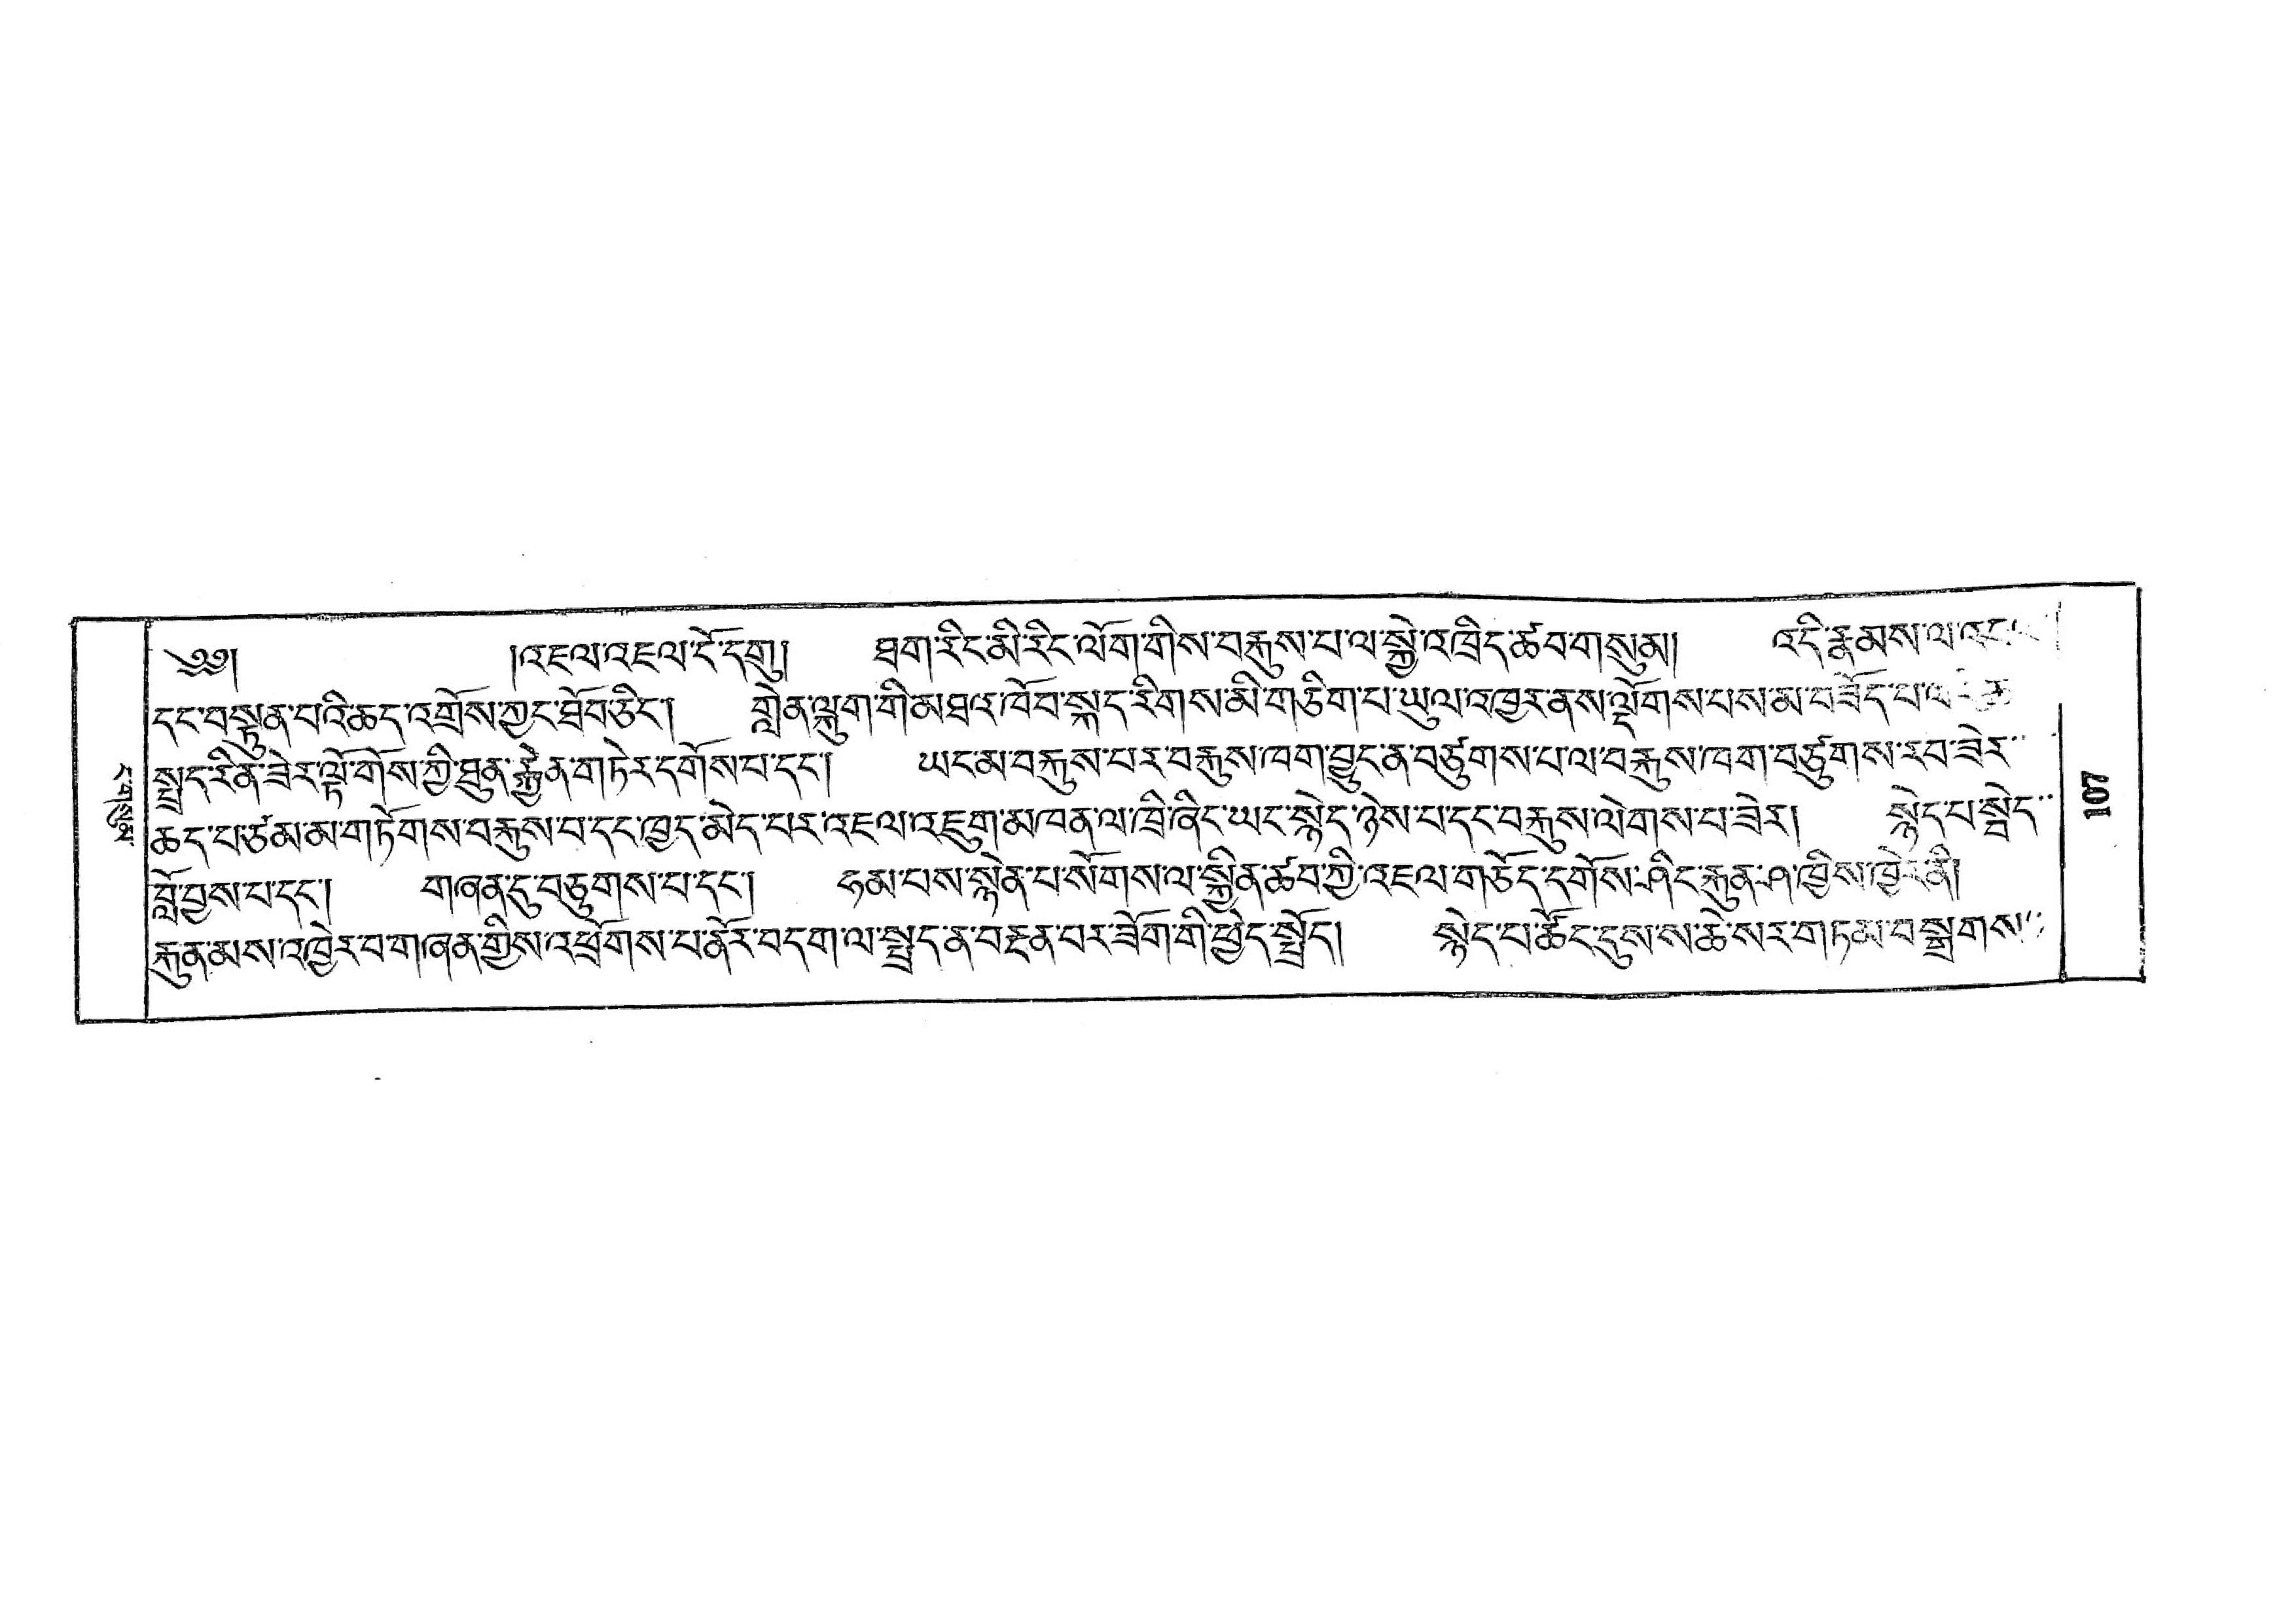ང་གསུམ་
༄༅།  །འཇལ་འཇལ་ངོ་དགུ། ཐག་རིང་མི་རིང་ལོག་གིས་བརྐུས་པ་ལ་སྐྱེ་འཁྲིད་ཚབ་གསུམ། འདི་རྣམས་ལ་་་་་་
དང་བསྟུན་པའི་ཆད་འགྲོས་ཀྱང་ཐོབ་ཅིང་། གླེན་ལྐུག་གི་མཐའ་ཁོབ་སྐད་རིགས་མི་གཅིག་པ་ཡུལ་འཁྱར་ནས་ལྡོགས་པས་མ་བཟོད་པ་ལ་་་་་་
སྤྲད་རིན་ཟེར་ལྟོ་གོས་ཀྱི་ཐུན་རྐྱེན་གཏེར་དགོས་པ་དང་། ཡང་མ་བརྐུས་པར་བརྐུས་ཁག་བྱུང་ན་བཙུགས་པ་ལ་བརྐུས་ཁག་བཙུགས་རབ་ཟེར་་་
ཆད་པ་ཙམམ་གཏོགས་བརྐུས་པ་དང་ཁྱད་མེད་པར་འཇལ་འཇུག་མཁན་ལ་ཁྲི་ཞིང་ཡང་སྙེད་ཉེས་པ་དད་བརྐུས་ལེགས་པ་ཟེར། སྙེད་པ་སྦེད་་
བློ་བྱས་པ་དང་། གཞན་དུ་བཅུགས་པ་དང་། ཧམ་པས་སྙེན་པ་སོགས་ལ་སྐྱིན་ཚབ་ཀྱི་འཇལ་གཅོད་དགོས་ཤིང་རྐུན་ཤ་ཁྱིས་ཁྱེར་ནི།
རྐུན་མས་འཁྱེར་བ་གཞན་གྱིས་འཕྲོགས་པ་ནོར་བདག་ལ་སྤྲད་ན་བརྔན་པར་ཟོག་གི་ཕྱེད་སྤྲོད། སྙེད་པཚོང་དུས་ས་ཆེ་སར་གཏམ་བསྒྲགས་་
